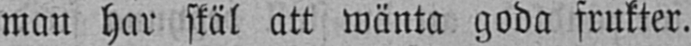man har skäl att wänta goda frukter.
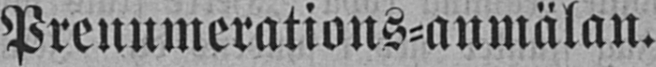Prenumerations-anmälan.
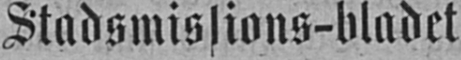Stadsmissions-bladet
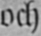och
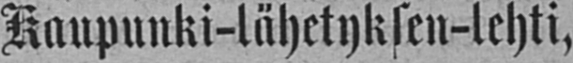Kaupunki-lähetyksen-lehti,
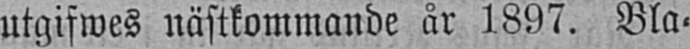utgifwes nästkommande år 1897. Bla-
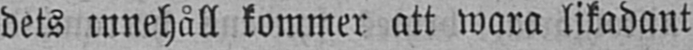dets innehåll kommer att wara likadant
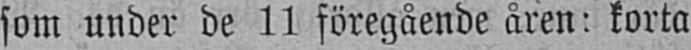som under de 11 föregående åren: korta
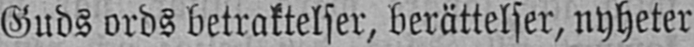Guds ords betraktelser, berättelser, nyheter
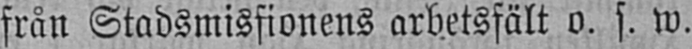från Stadsmissionens arbetsfält o. s. w.
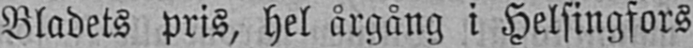Bladets pris, hel årgång i Helsingfors
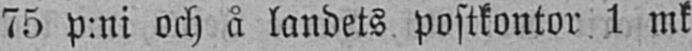75 p:ni och å landets postkontor 1 mk
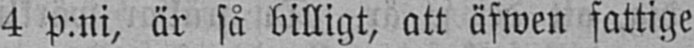4 p:ni, är så billigt, att äfwen fattige
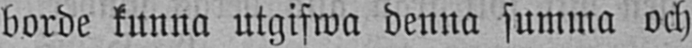borde kunna utgifwa denna summa och
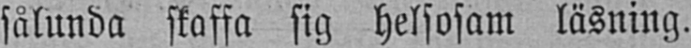sålunda skaffa sig helsosam läsning.
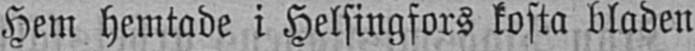Hem hemtade i Helsingfors kosta bladen
